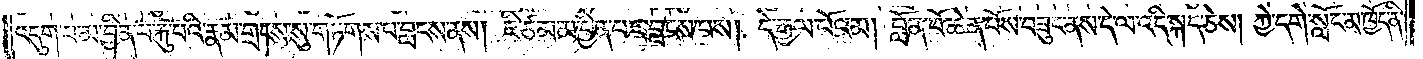འདུག་པ་མ་བྱིན་པ་རྐུ་བའི་རྣམ་གྲངས་སུ་གཏོགས་པ་བླངས་ནས། ཇི་ཙམ་མ་བྱིན་པར་བླངས་པས། དེ་རྒྱལ་པོའམ། བློན་པོ་ཆེན་པོས་བཟུང་ནས་དེ་ལ་འདི་སྐད་ཅེས། ཀྱེ་དགེ་སློང་མ་ཁྱོད་ནི་
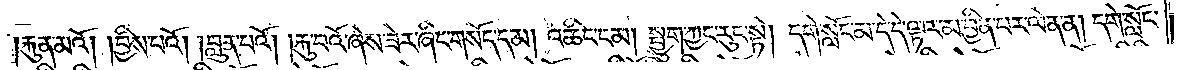རྐུན་མའོ། །བྱིས་པའོ། །བླུན་པའོ། །རྐུ་བའོ་ཞེས་ཟེར་ཞིང་གསོད་དམ། འཆིང་ངམ། སྤྱུག་ཀྱང་རུང་སྟེ། དགེ་སློང་མ་དེ་དེ་ལྟར་མ་བྱིན་པར་ལེན་ན། དགེ་སློང་
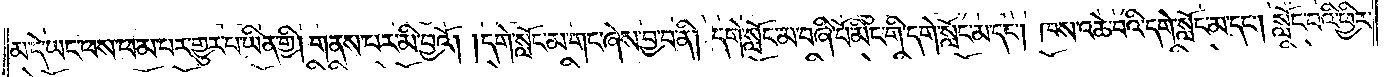མ་དེ་ཡང་ཕས་ཕམ་པར་གྱུར་པ་ཡིན་གྱི། གནས་པར་མི་བྱའོ། །དགེ་སློང་མ་གང་ཞེས་བྱ་བ་ནི། དགེ་སློང་མ་བཞི་པོ་མིང་གི་དགེ་སློང་མ་དང༌། ཁས་འཆེ་བའི་དགེ་སློང་མ་དང༌། སློབ་པའི་ཕྱིར་
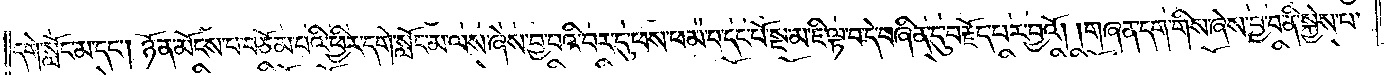དགེ་སློང་མ་དང༌། ཉོན་མོངས་པ་བཅོམ་པའི་ཕྱིར་དགེ་སློང་མ་ལས་ཞེས་བྱ་བའི་བར་དུ་ཕས་ཕམ་པ་དང་པོ་སྔ་མ་ཇི་ལྟ་བ་དེ་བཞིན་དུ་བརྗོད་པར་བྱའོ། །གཞན་དག་གིས་ཞེས་བྱ་བ་ནི་སྐྱེས་པ་
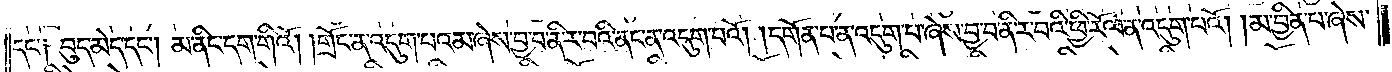དང་༑ བུད་མེད་དང༌། མ་ནིང་དག་གིའོ། །གྲོང་ན་འདུག་པའམ་ཞེས་བྱ་བ་ནི་ར་བའི་ནང་ན་འདུག་པའོ། །དགོན་པ་ན་འདུག་པ་ཞེས་བྱ་བ་ནི་ར་བའི་ཕྱི་རོལ་ན་འདུག་པའོ། །མ་བྱིན་པ་ཞེས་
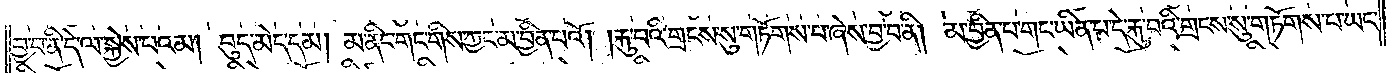བྱ་བ་ནི་དེ་ལ་སྐྱེས་པའམ། བུད་མེད་དམ། མ་ནིང་གང་གིས་ཀྱང་མ་བྱིན་པའོ། །རྐུ་བའི་གྲངས་སུ་གཏོགས་པ་ཞེས་བྱ་བ་ནི། མ་བྱིན་པ་གང་ཡིན་པ་དེ་རྐུ་བའི་གྲངས་སུ་གཏོགས་པ་ཡང་
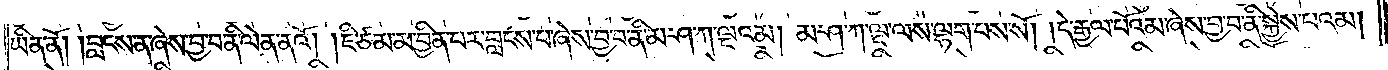ཡིན་ནོ། །བླངས་ན་ཞེས་བྱ་བ་ནི་ལེན་ནའོ། །ཇི་ཙམ་མ་བྱིན་པར་བླངས་པ་ཞེས་བྱ་བ་ནི་མ་ཤ་ཀ་ལྔའམ། མ་ཤ་ཀ་ལྔ་ལས་ལྷག་པས་སོ། །དེ་རྒྱལ་པོའམ་ཞེས་བྱ་བ་ནི་སྐྱེས་པའམ།
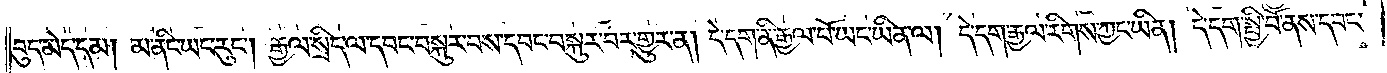བུད་མེད་དམ། མ་ནིང་ཡང་རུང༌། རྒྱལ་སྲིད་ལ་དབང་བསྐུར་བས་དབང་བསྐུར་བར་གྱུར་ན། དེ་དག་ནི་རྒྱལ་པོ་ཡང་ཡིན་ལ། དེ་དག་རྒྱལ་རིགས་ཀྱང་ཡིན། དེ་དག་སྤྱི་བོ་ནས་དབང་
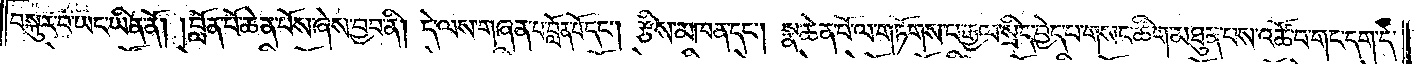བསྐུར་བ་ཡང་ཡིན་ནོ། །བློན་པོ་ཆེན་པོས་ཞེས་བྱ་བ་ནི། དེ་ལས་གཞན་པ་བློན་པོ་དང༌། རྩིས་མཁན་དང༌། སྣ་ཆེན་པོ་ལ་གཏོགས་པ་རྒྱལ་སྲིད་བྱེད་པ་གསང་ཚིག་མཐུན་པས་འཚོ་བ་གང་དག་དེ་
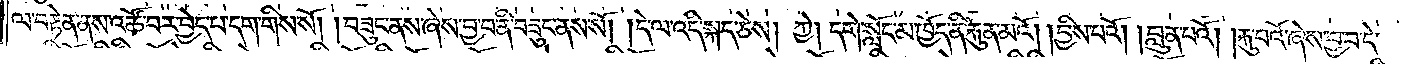ལ་བརྟེན་ནས་འཚོ་བར་བྱེད་པ་དག་གིས་སོ། །བཟུང་ནས་ཞེས་བྱ་བ་ནི་བཟུང་ནས་སོ། །དེ་ལ་འདི་སྐད་ཅེས། ཀྱེ། དགེ་སློང་མ་ཁྱོད་ནི་རྐུན་མའོ། །བྱིས་པའོ། །བླུན་པའོ། །རྐུ་བའོ་ཞེས་བྱ་བ་དེ་
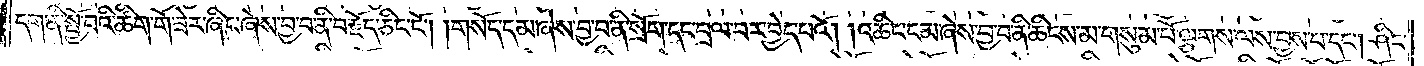དག་ནི་སྤྱོ་བའི་ཚིག་གོ་ཟེར་ཞིང་ཞེས་བྱ་བ་ནི་བརྗོད་ཅིང་ངོ༌། །གསོད་དམ་ཞེས་བྱ་བ་ནི་སྲོག་དང་བྲལ་བར་བྱེད་པའོ། །འཆིང་ངམ་ཞེས་བྱ་བ་ནི་ཆིངས་མ་གསུམ་པོ་ལྕགས་ལས་བྱས་པ་དང༌། ཤིང་
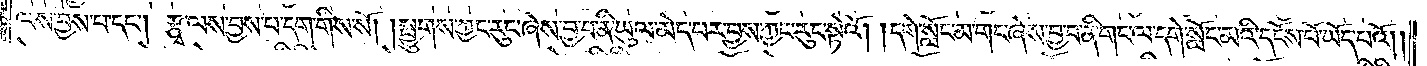ལས་བྱས་པ་དང༌། རྩྭ་ལས་བྱས་པ་དག་གིས་སོ། །སྤྱུགས་ཀྱང་རུང་ཞེས་བྱ་བ་ནི་ཡུལ་མེད་པར་བྱས་ཀྱང་རུང་སྟེའོ། །དགེ་སློང་མ་གང་ཞེས་བྱ་བ་ནི་གང་ལ་དགེ་སློང་མའི་དངོས་པོ་ཡོད་པའོ། །
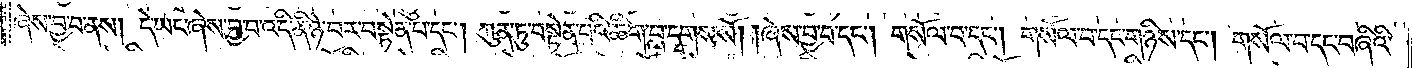ཞེས་བྱ་བ་ནས། དེ་ཡང་ཞེས་བྱ་བ་འདི་ནི་ཉེ་བར་བསྟེན་པ་དང༌། ཀུན་ཏུ་བསྟེན་པའི་ཚིག་བླ་དྭགས་སོ། །ཞེས་བྱ་བ་དང༌། གསོལ་བ་དང༌། གསོལ་བ་དང་གཉིས་དང༌། གསོལ་བ་དང་བཞིའི་
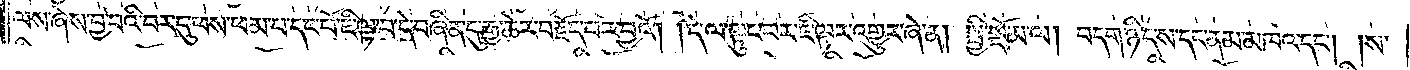ལས་ཞེས་བྱ་བའི་བར་དུ་ཕས་ཕམ་པ་དང་པོ་ཇི་ལྟ་བ་དེ་བཞིན་དུ་རྒྱ་ཆེར་བརྗོད་པར་བྱའོ། །དེ་ལ་ལྟུང་བར་ཇི་ལྟར་འགྱུར་ཞེ་ན། སྤྱི་སྡོམ་ལ། བདག་ཉིད་ས་དང་ནམ་མཁའ་དང༌། །ས་
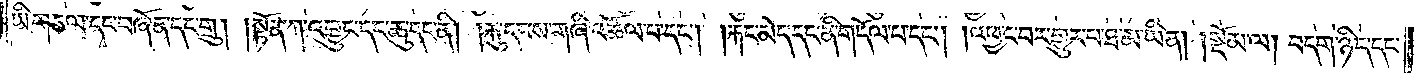ཡི་གཅལ་དང་བཞོན་དང་གྲུ། །སྟོན་ཀ་འབྱུང་དང་ཆུ་དང་ནི། །རྐུ་དང་ས་གཞི་འཚོལ་པ་དང༌། །རྐང་མེད་དང་ནི་གདོལ་པ་དང༌། །འཕྱང་བར་གྱུར་པ་ཐ་མ་ཡིན། །སྡོམ་ལ། བདག་ཉིད་དང་
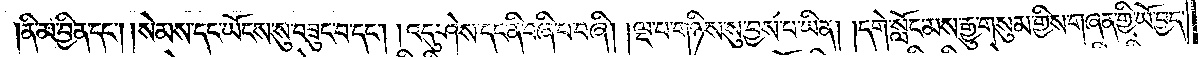ནི་མ་བྱིན་དང༌། །སེམས་དང་ཡོངས་སུ་བཟུང་བ་དང༌། །འདུ་ཤེས་དང་ནི་བཞི་པ་བཞི། །ལྔ་པ་གཉིས་སུ་བྱས་པ་ཡིན། །དགེ་སློང་མས་རྒྱུ་གསུམ་གྱིས་གཞན་གྱི་ཡོ་བྱད་
